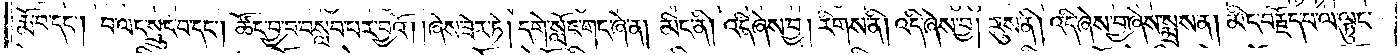རྨོ་བ་དང༌། བ་ལང་སྲུང་བ་དང༌། ཚོང་བྱ་བ་བསླབ་པར་བྱའོ། །ཞེས་ཟེར་ཏེ། དགེ་སློང་གང་ཞེ་ན། མིང་ནི། འདི་ཞེས་བྱ། རིགས་ནི། འདི་ཞེས་བྱ། རུས་ནི། འདི་ཞེས་བྱ་ཞེས་སྨྲས་ན། མིང་བརྗོད་པ་ལ་ལྟུང་
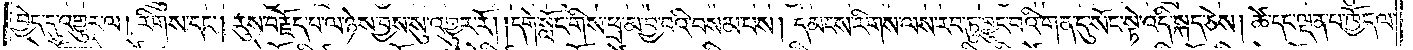བྱེད་དུ་འགྱུར་ལ། རིགས་དང༌། རུས་བརྗོད་པ་ལ་ཉེས་བྱས་སུ་འགྱུར་རོ། །དགེ་སློང་གིས་ཕྲ་མ་བྱ་བའི་བསམ་པས། དམངས་རིགས་ལས་རབ་ཏུ་བྱུང་བའི་གན་དུ་སོང་སྟེ་འདི་སྐད་ཅེས། ཚེ་དང་ལྡན་པ་ཁྱོད་ལ་
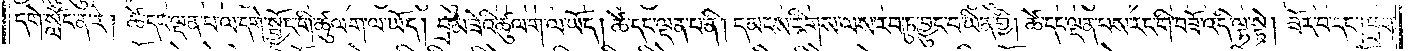དགེ་སློང་ན་རེ། ཚེ་དང་ལྡན་པ་ལ་དགེ་སྦྱོང་གི་ཚུལ་ག་ལ་ཡོད། བྲམ་ཟེའི་ཚུལ་ག་ལ་ཡོད། ཚེ་དང་ལྡན་པ་ནི། དམངས་རིགས་ལས་རབ་ཏུ་བྱུང་བ་ཡིན་གྱི། ཚེ་དང་ལྡན་པས་རང་གི་བཟོ་འདི་ལྟ་སྟེ། ཟོར་བ་དང༌། ཕྲག་
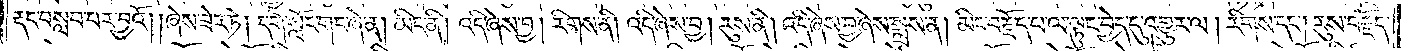རྡང་བསླབ་པར་བྱའོ། །ཞེས་ཟེར་ཏེ། དགེ་སློང་གང་ཞེ་ན། མིང་ནི། འདི་ཞེས་བྱ། རིགས་ནི། འདི་ཞེས་བྱ། རུས་ནི། འདི་ཞེས་བྱ་ཞེས་སྨྲས་ན། མིང་བརྗོད་པ་ལ་ལྟུང་བྱེད་དུ་འགྱུར་ལ། རིགས་དང༌། རུས་བརྗོད་
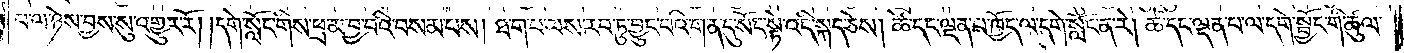པ་ལ་ཉེས་བྱས་སུ་འགྱུར་རོ། །དགེ་སློང་གིས་ཕྲ་མ་བྱ་བའི་བསམ་པས། ཐ་ག་པ་ལས་རབ་ཏུ་བྱུང་བའི་གན་དུ་སོང་སྟེ་འདི་སྐད་ཅེས། ཚེ་དང་ལྡན་པ་ཁྱོད་ལ་དགེ་སློང་ན་རེ། ཚེ་དང་ལྡན་པ་ལ་དགེ་སྦྱོང་གི་ཚུལ་
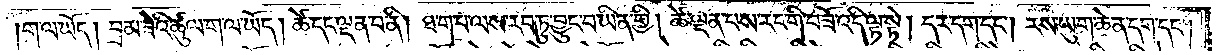ག་ལ་ཡོད། བྲམ་ཟེའི་ཚུལ་ག་ལ་ཡོད། ཚེ་དང་ལྡན་པ་ནི། ཐ་ག་པ་ལས་རབ་ཏུ་བྱུང་བ་ཡིན་གྱི། ཚེ་ལྡན་པས་རང་གི་བཟོ་འདི་ལྟ་སྟེ། དར་དག་དང༌། རས་ཡུག་ཆེན་དག་དང༌།
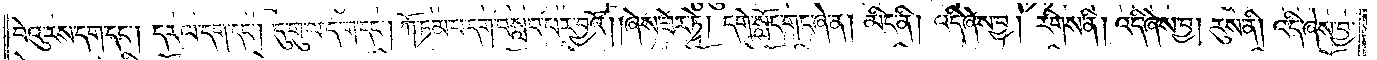བེའུ་རས་དག་དང༌། དར་ལ་དག་དང༌། དུ་གུ་ལ་དག་དང༌། ཀོ་ཏམ་པ་དག་བསླབ་པར་བྱའོ། །ཞེས་ཟེར་ཏེ། དགེ་སློང་གང་ཞེ་ན། མིང་ནི། འདི་ཞེས་བྱ། རིགས་ནི། འདི་ཞེས་བྱ། རུས་ནི། འདི་ཞེས་བྱ་
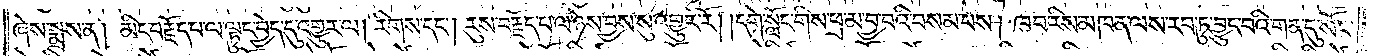ཞེས་སྨྲས་ན། མིང་བརྗོད་པ་ལ་ལྟུང་བྱེད་དུ་འགྱུར་ལ། རིགས་དང༌། རུས་བརྗོད་པ་ལ་ཉེས་བྱས་སུ་འགྱུར་རོ། །དགེ་སློང་གིས་ཕྲ་མ་བྱ་བའི་བསམ་པས། ཁབ་རིས་མཁན་ལས་རབ་ཏུ་བྱུང་བའི་གན་དུ་སོང་
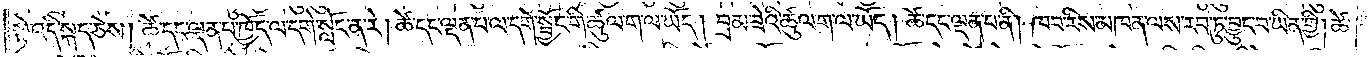སྟེ་འདི་སྐད་ཅེས། ཚེ་དང་ལྡན་པ་ཁྱོད་ལ་དགེ་སློང་ན་རེ། ཚེ་དང་ལྡན་པ་ལ་དགེ་སྦྱོང་གི་ཚུལ་ག་ལ་ཡོད། བྲམ་ཟེའི་ཚུལ་ག་ལ་ཡོད། ཚེ་དང་ལྡན་པ་ནི། ཁབ་རིས་མཁན་ལས་རབ་ཏུ་བྱུང་བ་ཡིན་གྱི། ཚེ་
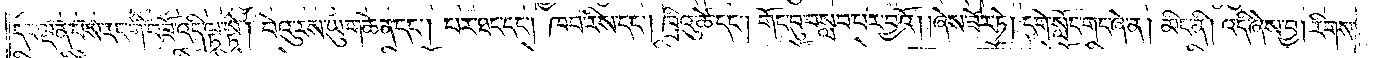དང་ལྡན་པས་རང་གི་བཟོ་འདི་ལྟ་སྟེ། བེའུ་རས་ཡུག་ཆེན་དང༌། པར་ཐང་དང༌། ཁབ་རིས་དང༌། ཁྲིའུ་ཚེ་དང༌། གོང་བུ་བསླབ་པར་བྱའོ། །ཞེས་ཟེར་ཏེ། དགེ་སློང་གང་ཞེ་ན། མིང་ནི། འདི་ཞེས་བྱ། རིགས་
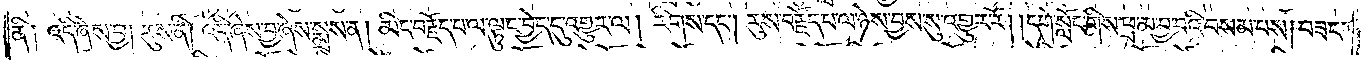ནི༑ འདི་ཞེས་བྱ། རུས་ནི། འདི་ཞེས་བྱ་ཞེས་སྨྲས་ན། མིང་བརྗོད་པ་ལ་ལྟུང་བྱེད་དུ་འགྱུར་ལ། རིགས་དང༌། རུས་བརྗོད་པ་ལ་ཉེས་བྱས་སུ་འགྱུར་རོ། །དགེ་སློང་གིས་ཕྲ་མ་བྱ་བའི་བསམ་པས། བཟང་
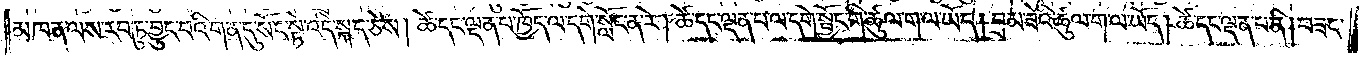མཁན་ལས་རབ་ཏུ་བྱུང་བའི་གན་དུ་སོང་སྟེ་འདི་སྐད་ཅེས། ཚེ་དང་ལྡན་པ་ཁྱོད་ལ་དགེ་སློང་ན་རེ། ཚེ་དང་ལྡན་པ་ལ་དགེ་སྦྱོང་གི་ཚུལ་ག་ལ་ཡོད། བྲམ་ཟེའི་ཚུལ་ག་ལ་ཡོད། ཚེ་དང་ལྡན་པ་ནི། བཟང་
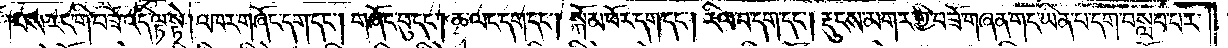པས་རང་གི་བཟོ་འདི་ལྟ་སྟེ། འཁར་གཞོང་དག་དང༌། གཞོང་བུ་དང༌། ཆ་ལང་དག་དང༌། སྐོམ་པོར་དག་དང༌། རིལ་བ་དག་དང༌། རྡུངས་མགར་གྱི་བཟོ་གཞན་གང་ཡིན་པ་དག་བསླབ་པར་
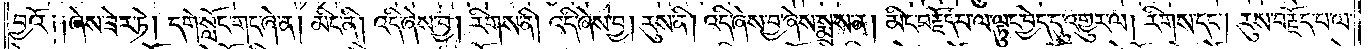བྱའོ༑ ༑ཞེས་ཟེར་ཏེ། དགེ་སློང་གང་ཞེ་ན། མིང་ནི། འདི་ཞེས་བྱ། རིགས་ནི། འདི་ཞེས་བྱ། རུས་ནི། འདི་ཞེས་བྱ་ཞེས་སྨྲས་ན། མིང་བརྗོད་པ་ལ་ལྟུང་བྱེད་དུ་འགྱུར་ལ། རིགས་དང༌། རུས་བརྗོད་པ་ལ་
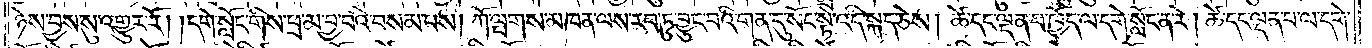ཉེས་བྱས་སུ་འགྱུར་རོ། །དགེ་སློང་གིས་ཕྲ་མ་བྱ་བའི་བསམ་པས། ཀོ་ལྤགས་མཁན་ལས་རབ་ཏུ་བྱུང་བའི་གན་དུ་སོང་སྟེ་འདི་སྐད་ཅེས། ཚེ་དང་ལྡན་པ་ཁྱོད་ལ་དགེ་སློང་ན་རེ། ཚེ་དང་ལྡན་པ་ལ་དགེ་
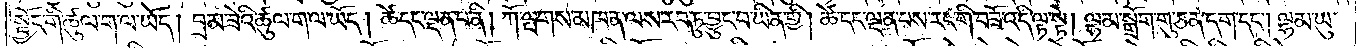སྦྱོང་གི་ཚུལ་ག་ལ་ཡོད། བྲམ་ཟེའི་ཚུལ་ག་ལ་ཡོད། ཚེ་དང་ལྡན་པ་ནི། ཀོ་ལྤགས་མཁན་ལས་རབ་ཏུ་བྱུང་བ་ཡིན་གྱི། ཚེ་དང་ལྡན་པས་རང་གི་བཟོ་འདི་ལྟ་སྟེ། ལྷམ་སྒྲོག་གུ་ཅན་དག་དང༌། ལྷམ་ཡུ་
